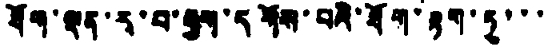ཐོག་ལྡན་རྭ་བ་རྒྱག་དགོས་པའི་ཐོག་རྟག་ཏུ་་་
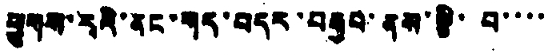ཕྱུགས་རྭའི་ནང་གད་བདར་བརྒྱབ་ནས་ལྕི་ བ་་་་
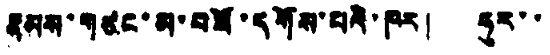རྣམས་གཙང་མ་སཟོ་དགོས་པའི་ཁར། ཧུར་་
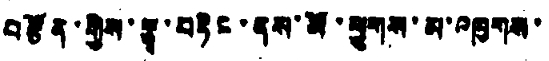བརྩོན་གྱིས་རྩྭ་བཏིང་ནས་མོ་ཕྱུགས་མ་འཁྱགས་
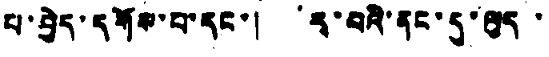པ་བྱེད་དགོས་པ་དང་། རྭ་བའི་ནང་དུ་ལུད་
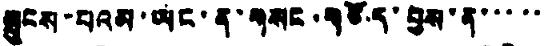སྤུངས་པའམ་ཡང་ན་གསང་གཅོད་བྱས་ན་་་་་
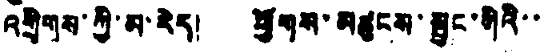འགྲིགས་ཀྱི་མ་རེད། ཕྱོགས་མཚུངས་སྦྱང་ཀིའི་་
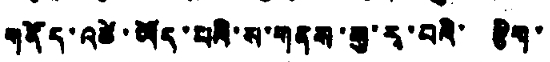གནོད་འཚེ་ཡོད་པའི་ས་གནས་སུ་རུ་བའི་ རྩིག
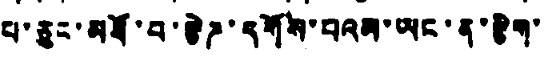པ་ཅུང་མཐོ་བ་རྩེཌ་དགོས་པའམ་ཡང་ན་རྩིག་
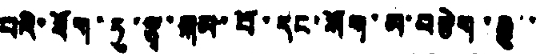པའི་ཐོག་ཏུ་རྩྭ་སྐམ་པོ་དང་སོག་མ་བརྩེག་རྒྱུ་་
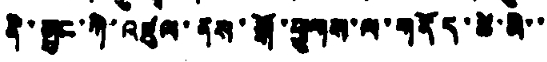ནི་སྤུང་ཀི་འཛུལ་ནས་སྒོ་ཕྱུགས་ལ་གནོད་ཚེ་མི་་
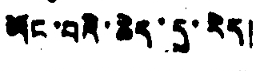ཡོང་བའི་ཆེད་དུ་རེད།
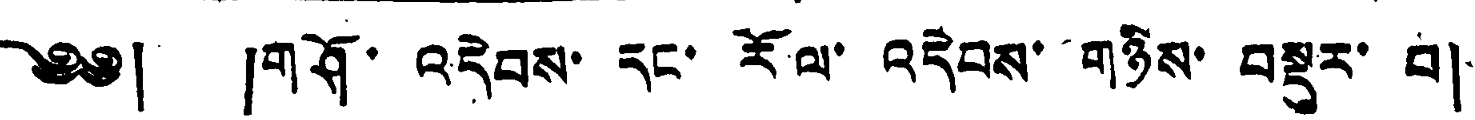༄༅། །གཤོ་ འདེབས་ དང་ རོལ་ འདེབས་ གཉིས་ བསྡུར་ བ།
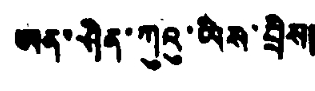ཨན་ཤིན་ཀུའུ་ཡིས་བྲིས།
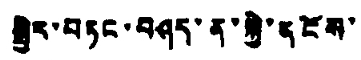སྤྱིར་བཏང་བཤད་ན་སྐྱེ་དངོས་
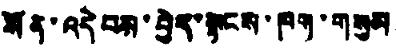སོན་འདེབས་བྱེད་སྟངས་ཁག་གསུམ
